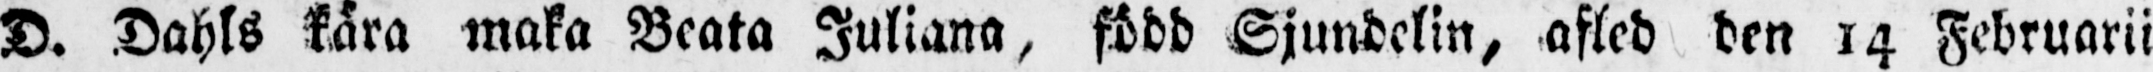D. Dahls kära maka Beata Juliana, född Sjundelin, afled den 14 Februarii
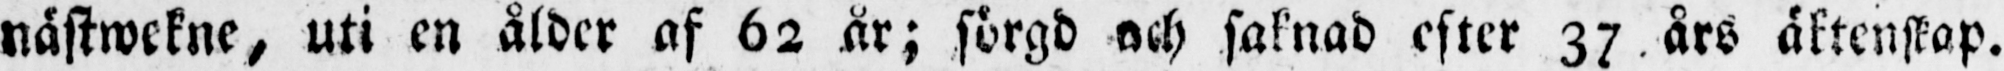nästwekne, uti en ålder af 62 år; sörgd och saknad efter 37 års äktenskap.
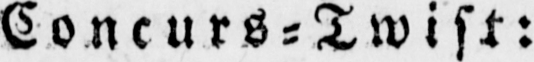Concurs-Twist:
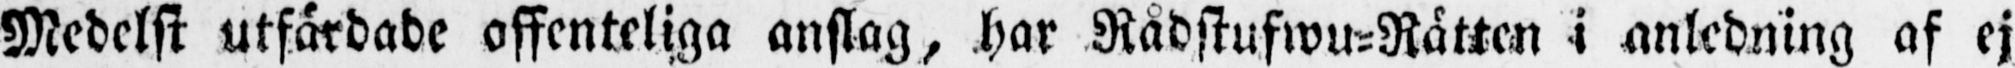Medelst utfärdade offenteliga anslag, har Rådstufwu-Rätten i anledning af ej
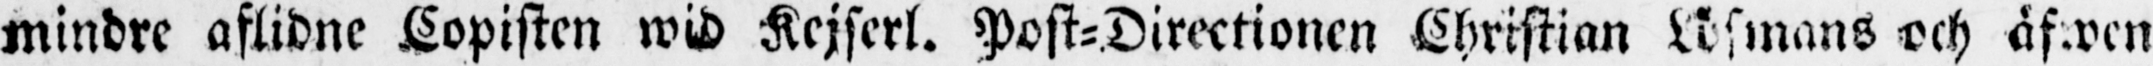mindre aflidne Copisten wid Kejserl. Post-Directionen Christian Löfmans och äfwen
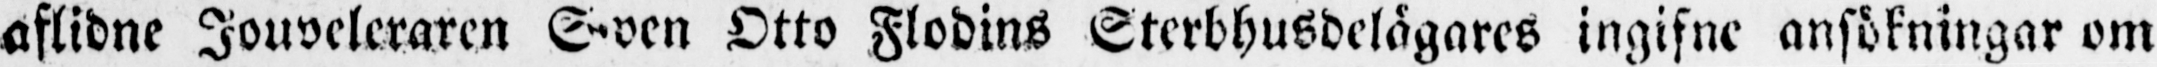aflidne Jouveleraren Sven Otto Flodins Sterbhusdelägares ingifne ansökningar om
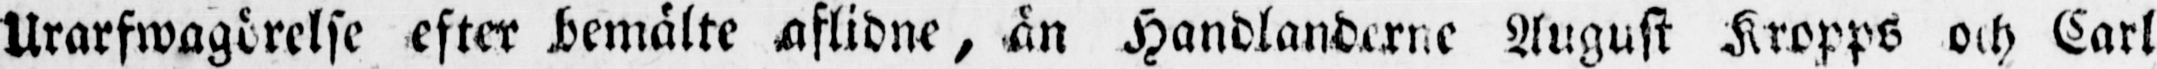Urarfwagörelse efter bemälte aflidne, än Handlanderne August Kropps och Carl
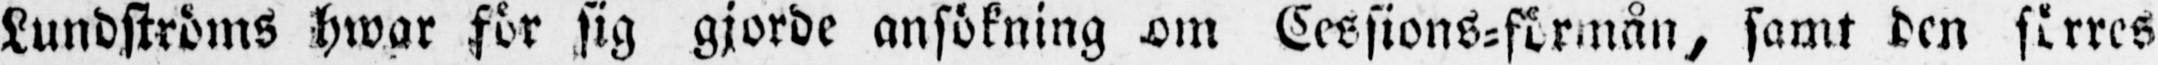Lundströms hwar för sig gjorde ansökning om Cessions-förmån, samt den färres
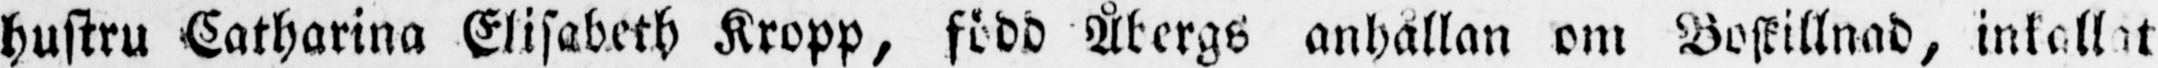hustru Catharina Elisabeth Kropp, född Åbergs anhållan om Boskillnad, inkallat
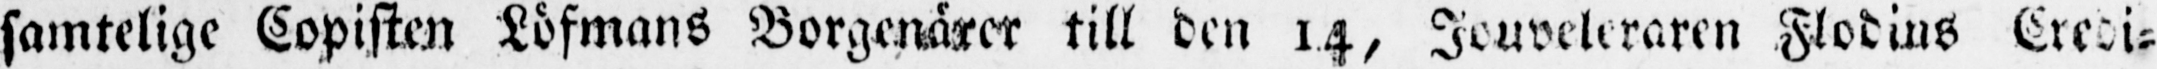samtelige Copisten Löfmans Borgenärer till den 14, Jouveleraren Flodins Credi-
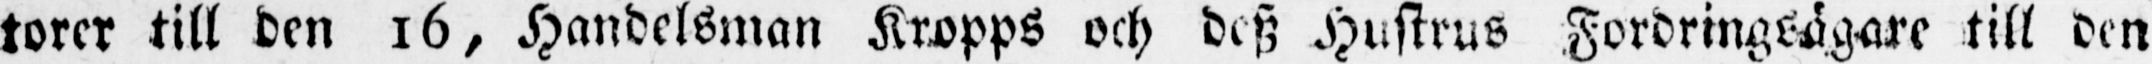torer till den 16, Handelsman Kropps och desz Hustrus Fordringsägare till den
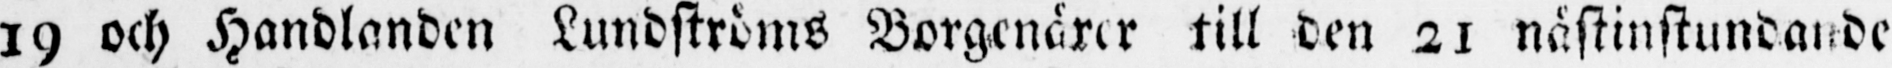19 och Handlanden Lundströms Borgenärer till den 21 nästinstundande Augusti,
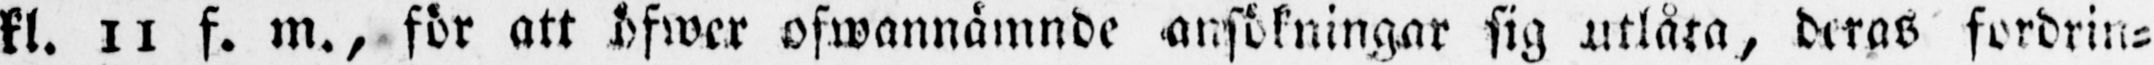kl. 11 f. m., för att öfwer ofwannämnde ansökningar sig utlåta, deras fordrin-
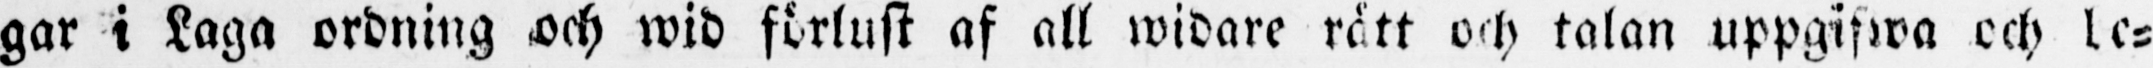gar i Laga ordning och wid förlust af all widare rätt och talan uppgifwa och be-
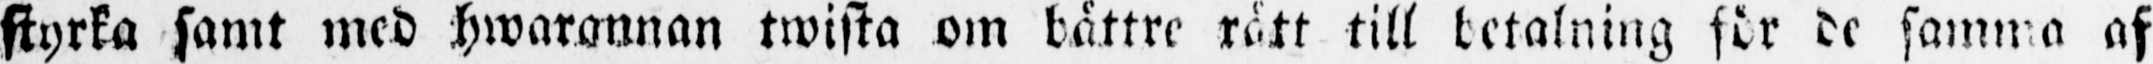styrka samt med hwarannan twista om bättre rätt till betalning för de samma af
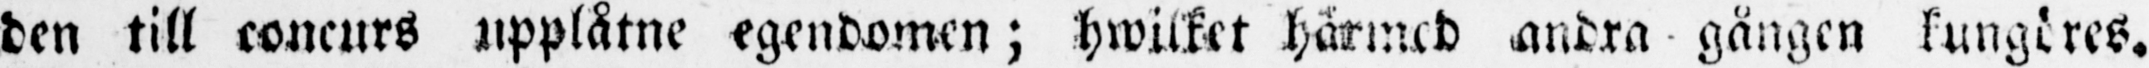den till concurs upplåtne egendomen; hwilket härmed andra gången kungöres.
